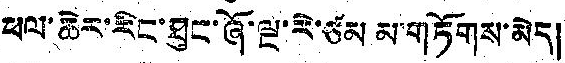ཕལ་ཆེར་རིང་ཐུང་ཞོ་ལྔ་རེ་ཙམ མ་གཏོགས་མེད།
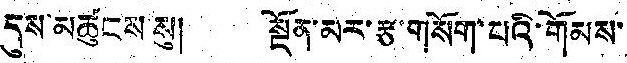དུས་མཚུངས་སུ། སྔོན་མར་རྩ་གསོག་པའི་གོམས་
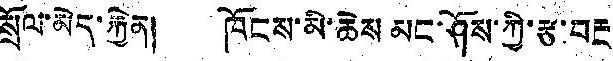སྲོལ་མེད་རྐྱེན། ཁོངས་མི་ཆེས མང་ཤོས་ཀྱི་རྩ་བརྔ
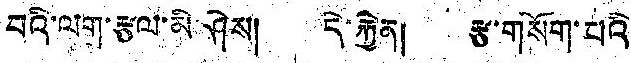བའི་ལག་རྩལ་མི་ཤེས། དེ་རྐྱེན། རྩ་གསོག་པའི
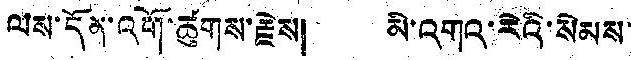ལས་དོན་འགོ་ཚུགས་རྗེས། མི་འགའ་རེའི་སེམས་
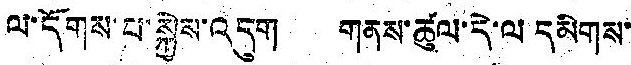ལ་དོགས་པ་སྐྱེས་འདུག གནས་ཚུལ་དེ་ལ དམིགས་
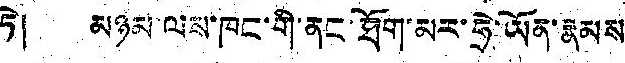ཏེ། མཉམ་ལས་ཁང་གི་ནང་ཐོག་མར་ཧྲེ་ཡོན་རྣམས
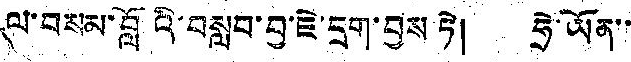ལ་བསམ་བློའི་བསླབ་བྱ་ཇེ་དྲག་བྱས ཏེ། ཧྲེ་ཡོན་་
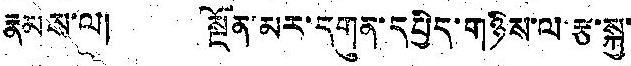རྣམས་ལ། སྔོན་མར་དགུན་དཔྱིད་གཉིས་ལ་རྩ་སྐྱ་
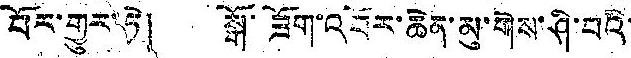བོར་གྱུར་ཏེ། སྒོ་ཟོག་འབོར་ཆེན་མུ་གེས་ཤི་བའི་
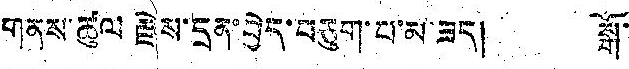གནས་ཚུལ་རྗེས་དྲན་བྱེད་བཅུག་པ་མ་ཟད། སྒོ་
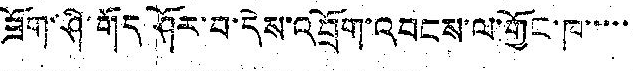ཟོག་ཤི་གོད ཤོར་བ་དེས་འབྲོག་འབངས་ལ་གྱོང་ཁ་་་་་
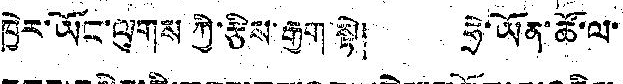ཁྱེར་ཡོང་ལུགས ཀྱི་རྩིས་རྒྱག་སྟེ། ཧྲེ་ཡོན་ཚོ་ལ་
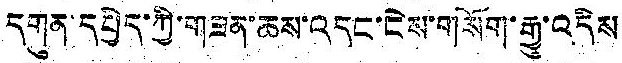དགུན་དཔྱིད་ཀྱི་གཟན་ཆས་འདང་ངེས་གསོག་རྒྱུ་འདིས་
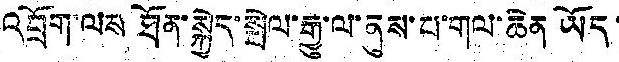འབྲོག་ལས ཐོན་སྐྱེད་སྤེལ་རྒྱུ་ལ་ནུས་པ་གལ་ཆེན ཡོད་
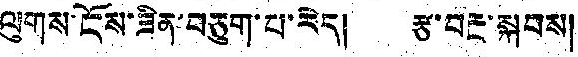ལུགས་ངོས་ཟིན་བཅུག་པ་རེད། རྩ་བརྔ་སྐབས།
